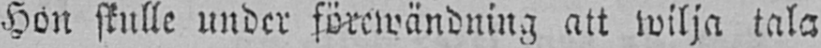Hon skulle under förewändning att wilja tala
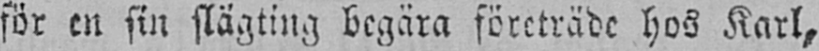för en sin slägting begära företräde hos Karl,
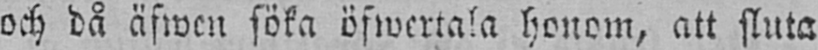och då äfwen söka öfwertala honom, att sluta
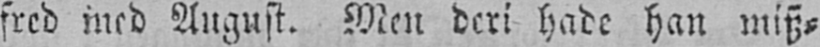fred med August. Men deri hade han misz-
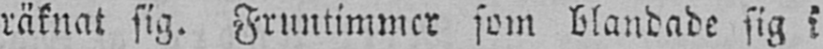räknat sig. Fruntimmer som blandade sig i
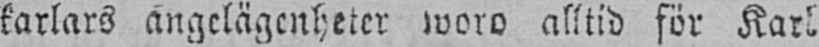karlars angelägenheter woro alltid för Karl
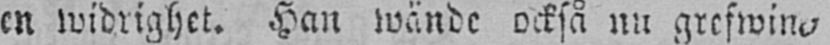en widrighet. Han wände också nu grefwin-
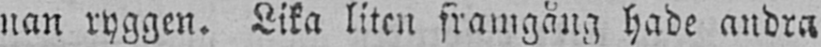nan ryggen. Lika liten framgång hade andra
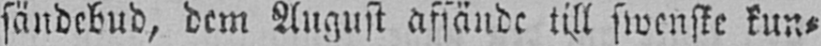sändebud, dem August afsände till swenske kun-
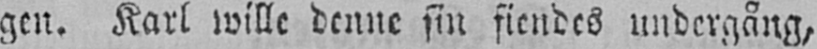gen. Karl wille denne sin fiendes undergång,
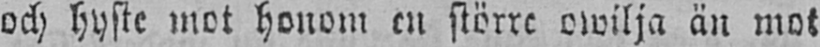och hyste mot honom en större owilja än mot
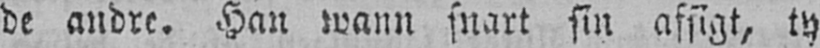de andre. Han wann snart sin afsigt, ty
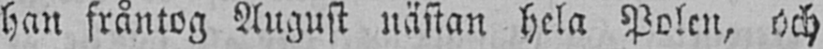han fråntog August nästan hela Polen, och
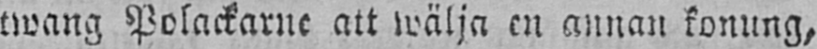twang Polackarne att wälja en annan konung,
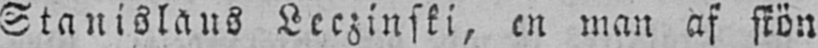Stanislaus Leczinski, en man af skön
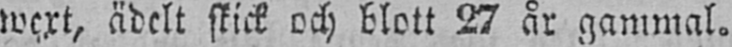wext, ädelt skick och blott 27 år gammal.
